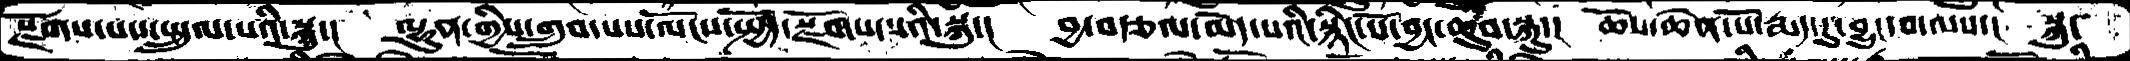སྫོགས་པས་སྤྲུལ་པའི་སྐུ་།  ལྷུན་གྱིས་གྲུབ་པས་ལོངས་སྤྱོད་སྫོགས་པའི་སྐུ་།  བྱ་བརྩལ་མེད་པའི་སྙིང་པོ་བྱང་ཆུབ་སྐུ་།  ཆོས་ཆེན་པོ་རྨད་དུ་བྱུང་བ་ལས་།  སྐུ་
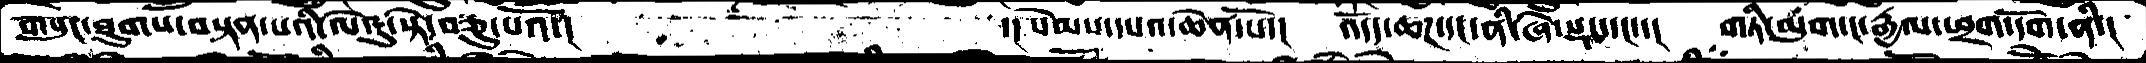གསུང་ཐུགས་བསྟན་པའི་ལེའུ་སྟེ་བཅུ་པའོ་།         ་།་སེམས་དཔའ་ཆེན་པོ་།   འདོད་ཆཌ་དང་ནི་ཞེ་སྡང་དང་་།  གཏི་མུག་ང་རྒྱལ་ཕྲག་དོག་ནི་།
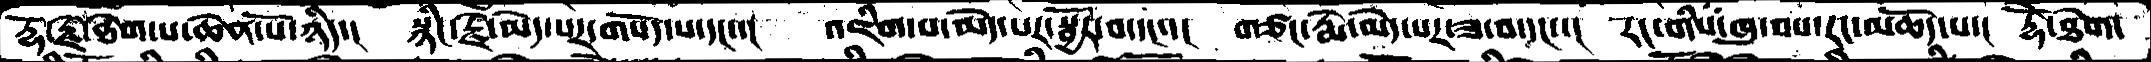རྡོ་རྗེ་ཐེག་པ་ཆེན་པོ་ཉིད་།  སྙིང་རྗེ་མེད་པར་གསོད་པ་དང་་།  འཇིག་པ་མེད་པར་སྦྱོར་བ་དང་་།  གཙང་རྨེ་མེད་པར་ཟ་བ་དང་་།  རང་གིས་ཁུ་བས་རང་མཆོད་པ་།  རྡོེ་ཐེག་
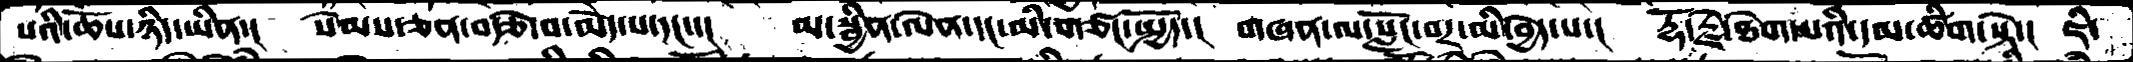པའི་ཆོས་ཉིད་ཡིན་།  སེམས་ཅན་བརྩེ་བ་མེད་པ་དང་་།   མ་སྦྱིན་ལེན་དང་མི་གཙང་སྤྱོད་།  གཞན་ལ་སློང་བར་མི་བྱེད་པ་།  རྡོ་རྗེ་ཐེག་པའི་དམ་ཚིག་སྟེ་།  ཇི་
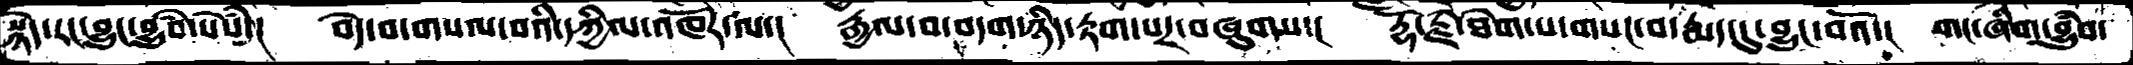སྙེད་རང་བྱུང་བྱུཾབ་སེསཾ་།  བདེ་བ་གསལ་བའི་དཀྱིལ་འཁོར་ལ་།  རྒྱལ་བ་བདག་ཉིད་རྟག་པར་བཞུགས་།   རྡོ་རྗེ་ཐེག་པ་གསང་བ་རྨད་དུ་བྱུང་བའོ་།  གང་ཞིག་བྱུཾབ་
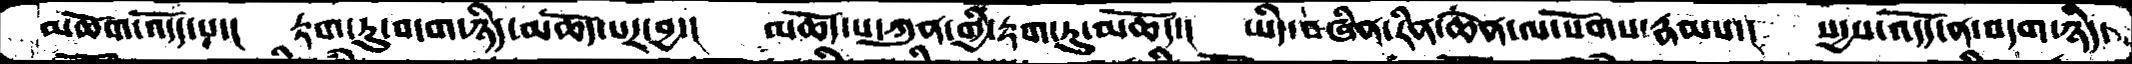མཆོག་འདོད་པ་།  རྟག་ཏུ་བདག་ཉིད་མཆོད་པར་བྱ་།  མཆོད་པ་ཀུན་གྱི་རྟག་ཏུ་མཆོད་།  ཡིད་བཞིན་རིན་ཆེན་ལ་སོགས་རྣམས་།  སདྱས་འདོད་ནས་བདག་ཉིད་
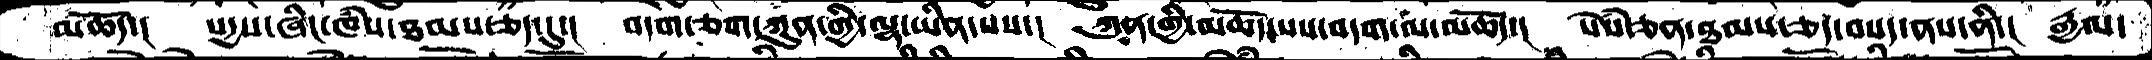མཆོད་།  སདྱས་ཞིང་ཁཾས་ཐམས་ཅད་དུ་། བདག་ཅག་ཀུན་གྱི་ལྷ་ཡིན་པས་།  ཀུན་གྱི་མཆོད་པས་བདག་ལ་མཆོད་།  སེསཾ་ཅན་ཐམས་ཅད་བསད་ནས་ནི་། རྒྱལ་
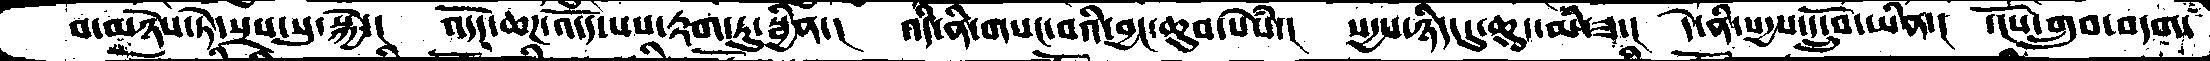བ་མཉེས་ཏེ་སྲས་སུ་སྐྱེ་།   འདོད་ཆཌ་འདོད་པས་རྟག་ཏུ་སྦྱིན་།   འདི་ནི་གསང་བའི་བྱང་ཆུབ་སེསཾ་།   སདྱས་ཉིད་དུ་ཆུད་མི་ཟ་།   དེ་ནི་སདྱས་དངྲོུབ་ཡིན་།    དངོས་གྲུབ་བདག་
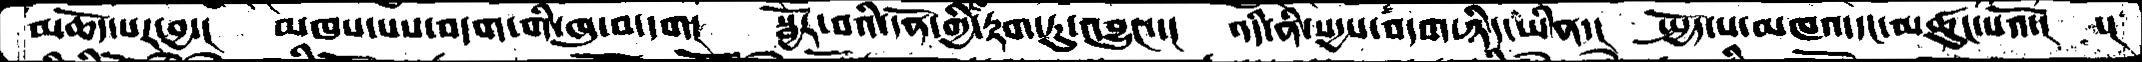མཆོད་པར་བྱ་།   མཁས་པས་བདག་གི་ཁུ་བ་དག།    སྦྱོར་བའི་དོན་གྱི་རྟག་ཏུ་འབྱུང་་།    འདི་ནི་སདྱས་བདག་ཉིད་ཡིན་།   སྤྱོད་པ་མཁའ་དང་མཚུང་པའོ་།   ་།
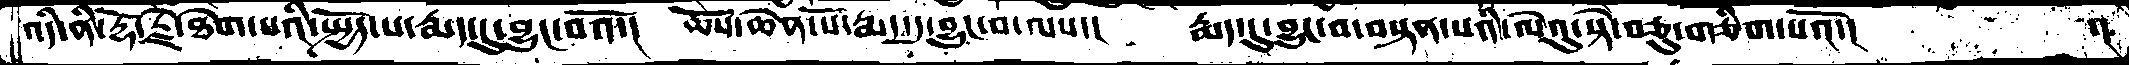འདི་ནི་རྡོ་རྗེཐེག་པའི་སྤྱོད་པ་རྨད་དུ་བྱུང་བའོ་།   ཆོས་ཆེན་པོ་རྨད་དུ་བྱུང་བ་ལས་།     རྨད་དུ་བྱུང་བ་བསྟན་པའི་ལེའུ་སྟེ་བཅུ་གཅིག་པའོ་།        ་།
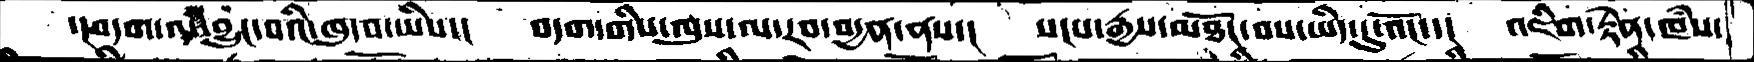་།བདག་ལ་བྱུང་བའི་ཁུ་བ་ཡིས་།    བདག་གིས་ལུས་ལ་རབ་བདྱན་ནས་།    སངས་རྒྱས་མཐོངས་བས་ཡིད་དུ་འོང་་།    འཇིག་རྟེན་ཁཾས་
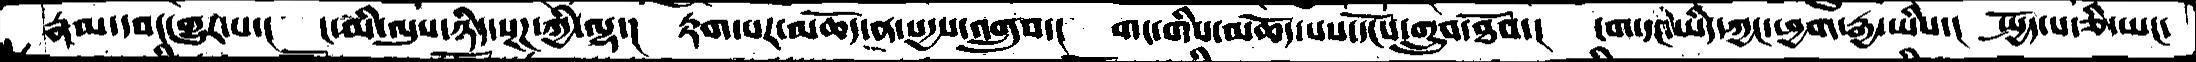རྣམ་དབང་གྱུར་པ་།   ང་མི་ལུས་ཉིད་སྔཌ་ཀྱི་ལྷ་།  རྟག་པར་མཆོད་ན་སདྱས་འགྲུབ་།  གང་གིས་མཆོད་པས་དངོས་གྲུབ་ཐོབ་།  ངག་དང་ཡིད་ཀྱང་ཕྱག་རྒྱ་ཡིས་།  སྤྱོད་པ་ཅི་ཡང་
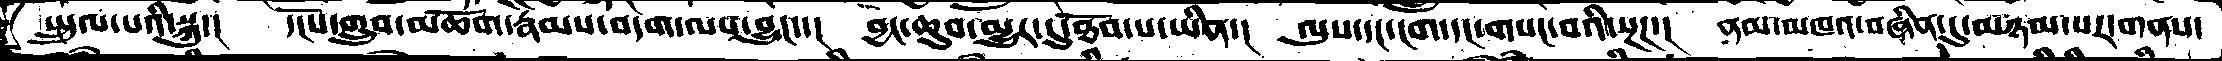སྤྲུལ་པའི་སྐུ་།   དངོས་གྲུབ་མཆོག་རྣམས་བདག་ལས་བྱུང་་།  བྱང་ཆུབ་མྱུར་དུ་ཐོབ་པ་ཡིན་།  ལུས་དང་ངག་དང་གསང་བའི་སྔཌ་།  ནམ་མཁའ་བཞིན་དུ་མཉམ་པར་གནས་
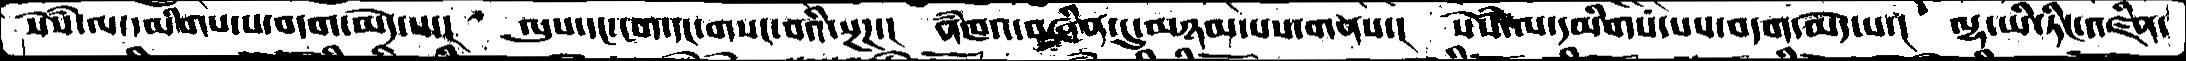སེཾས་ལ་དམིགས་པ་བདག་མེད་པ་།   ལུས་དང་ངག་དང་གསང་བའི་སྔཌ་།   ནཾཁའ་བཞིན་དུ་མཉམ་པས་གནས་།   སེཾས་ལ་དམིགས་པས་བདག་མེད་པ་།  ལྷ་ཡི་ཏིང་འཛིན་
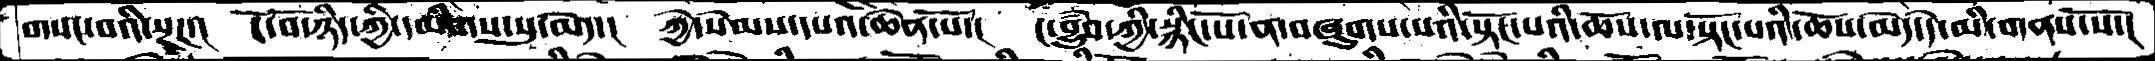གསང་བའི་སྔཌ་།  ངོ་བོ་ཉིད་ཀྱི་དམིགས་སུ་མེད་།  ཀྱེ་སེམས་དཔའ་ཆེན་པོ་།  ང་བྱུཾབ་ཀྱི་སྙིང་པོ་ན་བཞུགས་པའི་སྟོང་པའི་ཆོས་ལ་སྟོང་པའི་ཆོས་མེད་དེ་མི་གནས་སོ་།
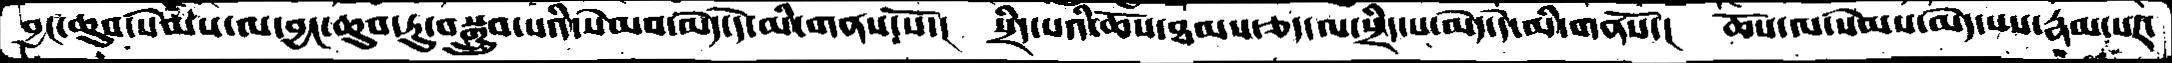བྱང་ཆུབ་སེམས་ལ་བྱང་ཆུབ་ཏུ་བསྒྲུབ་པའི་སེམས་མེད་དེ་མི་གནས་སོ་།  སྲིད་པའི་ཆོས་ཐམས་ཅད་ལ་སྲིད་པ་མེད་དེ་མི་གནསོ་།  ཆོས་ལ་སེམས་མེད་པས་རྣམ་པར་
